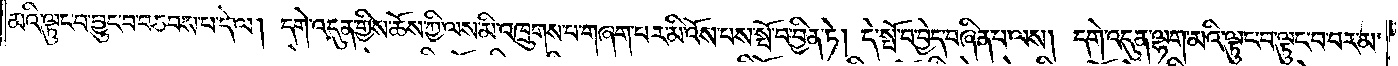མའི་ལྟུང་བ་བྱུང་བ་བཅབས་པ་དེ་ལ། དགེ་འདུན་གྱིས་ཆོས་ཀྱི་ལས་མི་འཁྲུགས་པ་གཞག་པར་མི་འོས་པས་སྤོ་བ་བྱིན་ཏེ། དེ་སྤོ་བ་བྱེད་བཞིན་པ་ལས། དགེ་འདུན་ལྷག་མའི་ལྟུང་བ་ལྟུང་བ་བར་མ་
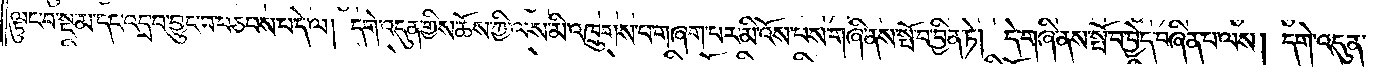ལྟུང་བ་སྔ་མ་དང་འདྲ་བ་བྱུང་བ་བཅབས་པ་དེ་ལ། དགེ་འདུན་གྱིས་ཆོས་ཀྱི་ལས་མི་འཁྲུགས་པ་གཞག་པར་མི་འོས་པས་གཞི་ནས་སྤོ་བ་བྱིན་ཏེ། དེ་གཞི་ནས་སྤོ་བ་བྱེད་བཞིན་པ་ལས། དགེ་འདུན་
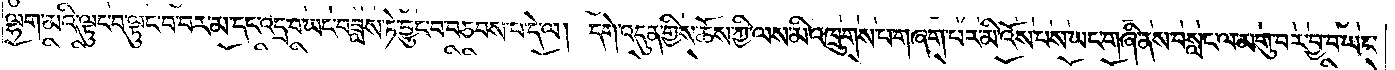ལྷག་མའི་ལྟུང་བ་ལྟུང་བ་བར་མ་དང་འདྲ་བ་ཡང་བཟླས་ཏེ་བྱུང་བ་བཅབས་པ་དེ་ལ། དགེ་འདུན་གྱིས་ཆོས་ཀྱི་ལས་མི་འཁྲུགས་པ་གཞག་པར་མི་འོས་པས་ཡང་གཞི་ནས་བསླང་ལ་མགུ་བར་བྱ་བ་ཡང་
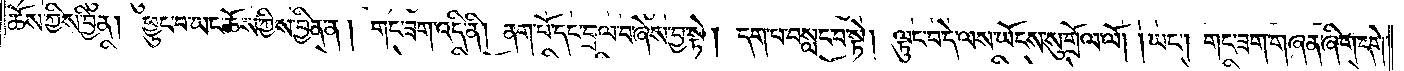ཆོས་ཀྱིས་བྱིན། ཕྱུང་བ་ཡང་ཆོས་ཀྱིས་བྱིན་ན། གང་ཟག་འདི་ནི། ནག་པོ་དང་བྲལ་བ་ཞེས་བྱ་སྟེ། དག་པ་བསླང་བ་སྟེ། ལྟུང་བ་དེ་ལས་ཡོངས་སུ་གྲོལ་ལོ། །ཡང༌། གང་ཟག་གཞན་ཞིག་དགེ་
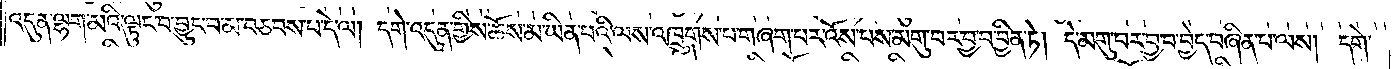འདུན་ལྷག་མའི་ལྟུང་བ་བྱུང་བ་མ་བཅབས་པ་དེ་ལ། དགེ་འདུན་གྱིས་ཆོས་མ་ཡིན་པའི་ལས་འཁྲུགས་པ་གཞག་པར་འོས་པས་མགུ་བར་བྱ་བ་བྱིན་ཏེ། དེ་མགུ་བར་བྱ་བ་བྱེད་བཞིན་པ་ལས། དགེ་
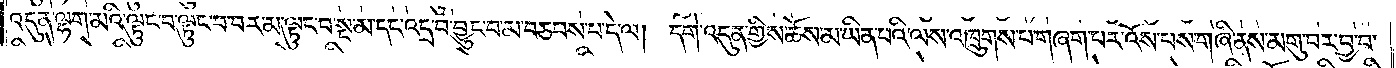འདུན་ལྷག་མའི་ལྟུང་བ་ལྟུང་བ་བར་མ་ལྟུང་བ་སྔ་མ་དང་འདྲ་བ་བྱུང་བ་མ་བཅབས་པ་དེ་ལ། དགེ་འདུན་གྱིས་ཆོས་མ་ཡིན་པའི་ལས་འཁྲུགས་པ་གཞག་པར་འོས་པས་གཞི་ནས་མགུ་བར་བྱ་བ་
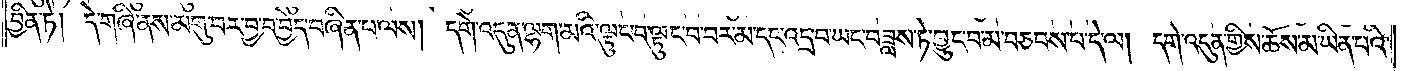བྱིན་ཏེ། དེ་གཞི་ནས་མགུ་བར་བྱ་བ་བྱེད་བཞིན་པ་ལས། དགེ་འདུན་ལྷག་མའི་ལྟུང་བ་ལྟུང་བ་བར་མ་དང་འདྲ་བ་ཡང་བཟླས་ཏེ་བྱུང་བ་མ་བཅབས་པ་དེ་ལ། དགེ་འདུན་གྱིས་ཆོས་མ་ཡིན་པའི་
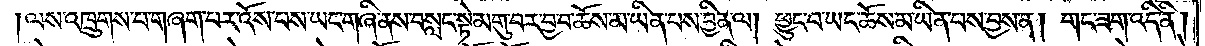ལས་འཁྲུགས་པ་གཞག་པར་འོས་པས་ཡང་གཞི་ནས་བསླང་སྟེ་མགུ་བར་བྱ་བ་ཆོས་མ་ཡིན་པས་བྱིན་ལ། ཕྱུང་བ་ཡང་ཆོས་མ་ཡིན་པས་བྱས་ན། གང་ཟག་འདི་ནི།
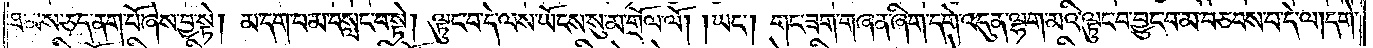ཐམས་ཅད་ནག་པོ་ཞེས་བྱ་སྟེ། མ་དག་པ་མ་བསླང་བ་སྟེ། ལྟུང་བ་དེ་ལས་ཡོངས་སུ་མ་གྲོལ་ལོ། །ཡང༌། གང་ཟག་གཞན་ཞིག་དགེ་འདུན་ལྷག་མའི་ལྟུང་བ་བྱུང་བ་མ་བཅབས་པ་དེ་ལ།དགེ་
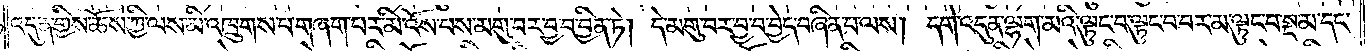འདུན་གྱིས་ཆོས་ཀྱི་ལས་མི་འཁྲུགས་པ་གཞག་པར་མི་འོས་པས་མགུ་བར་བྱ་བ་བྱིན་ཏེ། དེ་མགུ་བར་བྱ་བ་བྱེད་བཞིན་པ་ལས། དགེ་འདུན་ལྷག་མའི་ལྟུང་བ་ལྟུང་བ་བར་མ་ལྟུང་བ་སྔ་མ་དང་
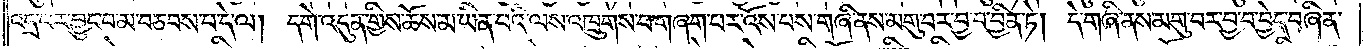འདྲ་བར་བྱུང་བ་མ་བཅབས་པ་དེ་ལ། དགེ་འདུན་གྱིས་ཆོས་མ་ཡིན་པའི་ལས་འཁྲུགས་པ་གཞག་པར་འོས་པས་གཞི་ནས་མགུ་བར་བྱ་བ་བྱིན་ཏེ། དེ་གཞི་ནས་མགུ་བར་བྱ་བ་བྱེད་བཞིན་
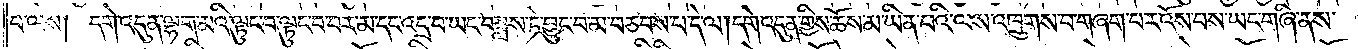པ་ལས། དགེ་འདུན་ལྷག་མའི་ལྟུང་བ་ལྟུང་བ་བར་མ་དང་འདྲ་བ་ཡང་བཟླས་ཏེ་བྱུང་བ་མ་བཅབས་པ་དེ་ལ། དགེ་འདུན་གྱིས་ཆོས་མ་ཡིན་པའི་ལས་འཁྲུགས་པ་གཞག་པར་འོས་པས་ཡང་གཞི་ནས་
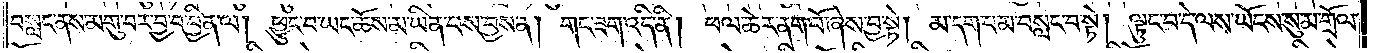བསླང་ནས་མགུ་བར་བྱ་བ་བྱིན་ལ། ཕྱུང་བ་ཡང་ཆོས་མ་ཡིན་པས་བྱས་ན། གང་ཟག་འདི་ནི། ཕལ་ཆེར་ནག་པོ་ཞེས་བྱ་སྟེ། མ་དག་པ་མ་བསླང་བ་སྟེ། ལྟུང་བ་དེ་ལས་ཡོངས་སུ་མ་གྲོལ་
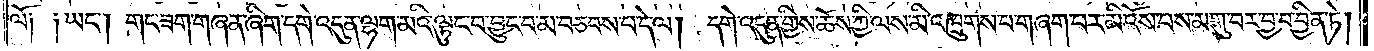ལོ༑ ༑ཡང༌། གང་ཟག་གཞན་ཞིག་དགེ་འདུན་ལྷག་མའི་ལྟུང་བ་བྱུང་བ་མ་བཅབས་པ་དེ་ལ། དགེ་འདུན་གྱིས་ཆོས་ཀྱི་ལས་མི་འཁྲུགས་པ་གཞག་པར་མི་འོས་པས་མགུ་བར་བྱ་བ་བྱིན་ཏེ།
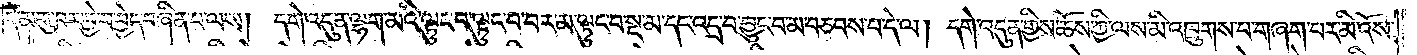དེ་མགུར་བར་བྱེ་བ་བྱེད་བཞིན་པ་ལས། དགེ་འདུན་ལྷག་མའི་ལྟུང་བ་ལྟུང་བ་བར་མ་ལྟུང་བ་སྔ་མ་དང་འདྲ་བ་བྱུང་བ་མ་བཅབས་པ་དེ་ལ། དགེ་འདུན་གྱིས་ཆོས་ཀྱི་ལས་མི་འཁྲུགས་པ་གཞག་པར་མི་འོས་
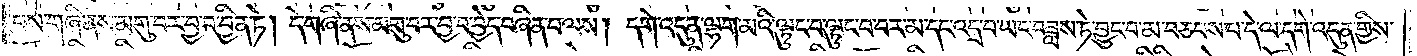པས་གཞི་ནས་མགུ་བར་བྱ་བ་བྱིན་ཏེ། དེ་གཞི་ནས་མགུ་བར་བྱ་བ་བྱེད་བཞིན་པ་ལས། དགེ་འདུན་ལྷག་མའི་ལྟུང་བ་ལྟུང་བ་བར་མ་དང་འདྲ་བ་ཡང་བཟླས་ཏེ་བྱུང་བ་མ་བཅབས་པ་དེ་ལ་དགེ་འདུན་གྱིས་
